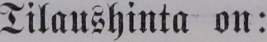Tilaushinta on:
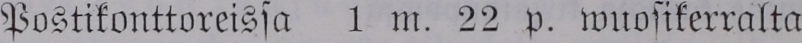Postikonttoreissa 1 m. 22 p. wuosikerralta
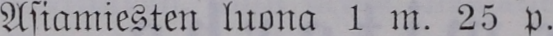Asiamiesten luona 1 m. 25 p.
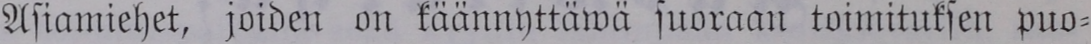Asiamiehet, joiden on käännyttäwä suoraan toimituksen puo-
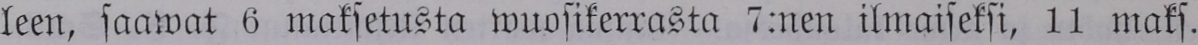leen, saawat 6 maksetusta wuosikerrasta 7:nen ilmaiseksi, 11 maks.
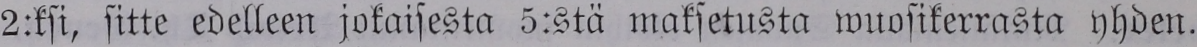2:ksi, sitte edelleen jokaisesta 5:stä maksetusta wuosikerrasta yhden.
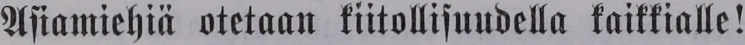Asiamiehiä otetaan kiitollisuudella kaikkialle!
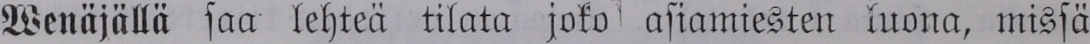Wenäjällä saa lehteä tilata joko asiamiesten luona, missä
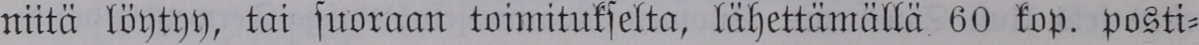niitä löytyy, tai suoraan toimitukselta, lähettämällä 60 kop. posti-
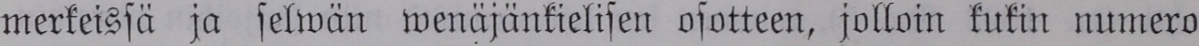merkeissä ja selwän wenäjänkielisen osotteen, jolloin kukin numero
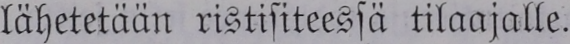lähetetään ristisiteessä tilaajalle.
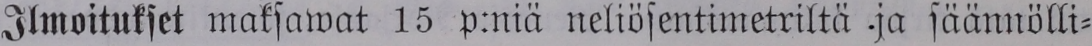Ilmoitukset maksawat 15 p:niä neliösentimetriltä ja säännölli-
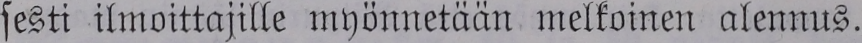sesti ilmoittajille myönnetään melkoinen alennus.
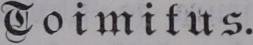Toimitus.
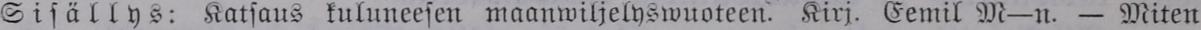Sisällys: Katsaus kuluneesen maanwiljelyswuoteen. Kirj. Eemil M—n. — Miten
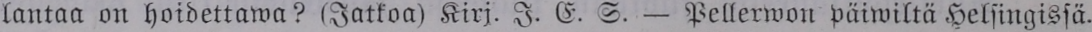lantaa on hoidettawa? (Jatkoa) Kirj. I. E. S. Pellerwon Päiwiltä Helsingissä.
